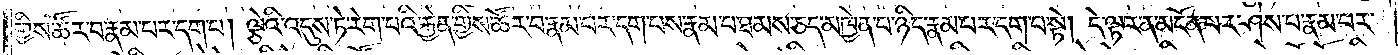གྱིས་ཚོར་བ་རྣམ་པར་དག་པ། ལྕེའི་འདུས་ཏེ་རེག་པའི་རྐྱེན་གྱིས་ཚོར་བ་རྣམ་པར་དག་པས་རྣམ་པ་ཐམས་ཅད་མཁྱེན་པ་ཉིད་རྣམ་པར་དག་པ་སྟེ། དེ་ལྟར་ན་མངོན་པར་ཤེས་པ་རྣམ་པར་
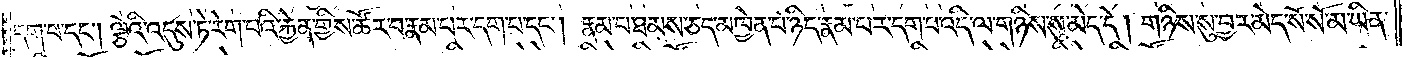དག་པ་དང༌། ལྕེའི་འདུས་ཏེ་རེག་པའི་རྐྱེན་གྱིས་ཚོར་བ་རྣམ་པར་དག་པ་དང༌། རྣམ་པ་ཐམས་ཅད་མཁྱེན་པ་ཉིད་རྣམ་པར་དག་པ་འདི་ལ་གཉིས་སུ་མེད་དེ། གཉིས་སུ་བྱར་མེད་སོ་སོ་མ་ཡིན་
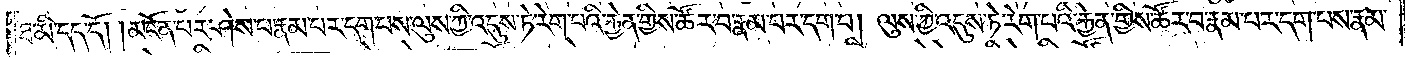ཐ་མི་དད་དོ། །མངོན་པར་ཤེས་པ་རྣམ་པར་དག་པས་ལུས་ཀྱི་འདུས་ཏེ་རེག་པའི་རྐྱེན་གྱིས་ཚོར་བ་རྣམ་པར་དག་པ། ལུས་ཀྱི་འདུས་ཏེ་རེག་པའི་རྐྱེན་གྱིས་ཚོར་བ་རྣམ་པར་དག་པས་རྣམ་
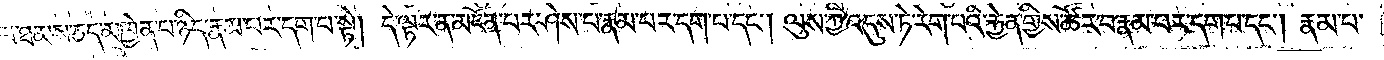པ་ཐམས་ཅད་མཁྱེན་པ་ཉིད་རྣམ་པར་དག་པ་སྟེ། དེ་ལྟར་ན་མངོན་པར་ཤེས་པ་རྣམ་པར་དག་པ་དང༌། ལུས་ཀྱི་འདུས་ཏེ་རེག་པའི་རྐྱེན་གྱིས་ཚོར་བ་རྣམ་པར་དག་པ་དང༌། རྣམ་པ་
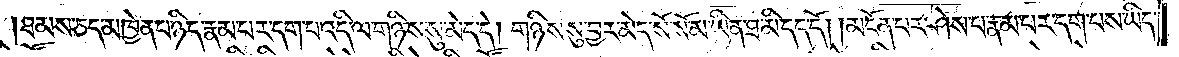ཐམས་ཅད་མཁྱེན་པ་ཉིད་རྣམ་པར་དག་པ་འདི་ལ་གཉིས་སུ་མེད་དེ། གཉིས་སུ་བྱར་མེད་སོ་སོ་མ་ཡིན་ཐ་མི་དད་དོ། །མངོན་པར་ཤེས་པ་རྣམ་པར་དག་པས་ཡིད་
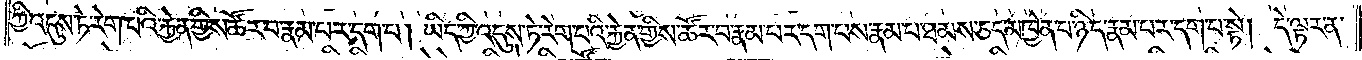ཀྱི་འདུས་ཏེ་རེག་པའི་རྐྱེན་གྱིས་ཚོར་བ་རྣམ་པར་དག་པ། ཡིད་ཀྱི་འདུས་ཏེ་རེག་པའི་རྐྱེན་གྱིས་ཚོར་བ་རྣམ་པར་དག་པས་རྣམ་པ་ཐམས་ཅད་མཁྱེན་པ་ཉིད་རྣམ་པར་དག་པ་སྟེ། དེ་ལྟར་ན་
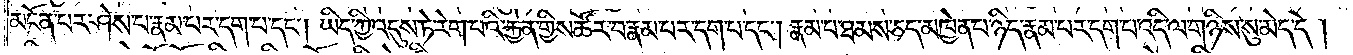མངོན་པར་ཤེས་པ་རྣམ་པར་དག་པ་དང༌། ཡིད་ཀྱི་འདུས་ཏེ་རེག་པའི་རྐྱེན་གྱིས་ཚོར་བ་རྣམ་པར་དག་པ་དང༌། རྣམ་པ་ཐམས་ཅད་མཁྱེན་པ་ཉིད་རྣམ་པར་དག་པ་འདི་ལ་གཉིས་སུ་མེད་དེ།
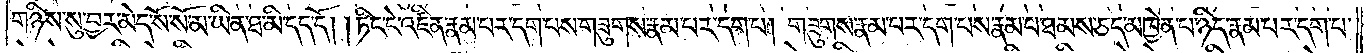གཉིས་སུ་བྱར་མེད་སོ་སོ་མ་ཡིན་ཐ་མི་དད་དོ། །ཏིང་ངེ་འཛིན་རྣམ་པར་དག་པས་གཟུགས་རྣམ་པར་དག་པ། གཟུགས་རྣམ་པར་དག་པས་རྣམ་པ་ཐམས་ཅད་མཁྱེན་པ་ཉིད་རྣམ་པར་དག་པ་
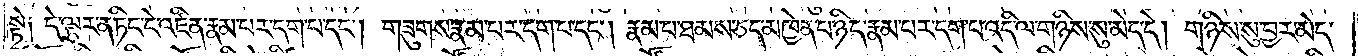སྟེ༑ དེ་ལྟར་ན་ཏིང་ངེ་འཛིན་རྣམ་པར་དག་པ་དང༌། གཟུགས་རྣམ་པར་དག་པ་དང༌། རྣམ་པ་ཐམས་ཅད་མཁྱེན་པ་ཉིད་རྣམ་པར་དག་པ་འདི་ལ་གཉིས་སུ་མེད་དེ། གཉིས་སུ་བྱར་མེད་
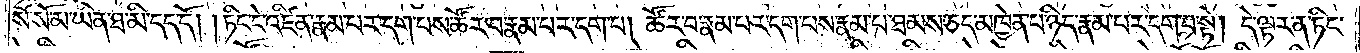སོ་སོ་མ་ཡིན་ཐ་མི་དད་དོ། །ཏིང་ངེ་འཛིན་རྣམ་པར་དག་པས་ཚོར་བ་རྣམ་པར་དག་པ། ཚོར་བ་རྣམ་པར་དག་པས་རྣམ་པ་ཐམས་ཅད་མཁྱེན་པ་ཉིད་རྣམ་པར་དག་པ་སྟེ། དེ་ལྟར་ན་ཏིང་
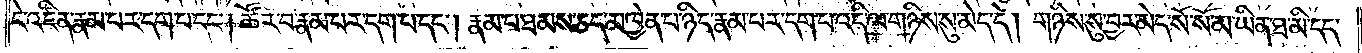ངེ་འཛིན་རྣམ་པར་དག་པ་དང༌། ཚོར་བ་རྣམ་པར་དག་པ་དང༌། རྣམ་པ་ཐམས་ཅད་མཁྱེན་པ་ཉིད་རྣམ་པར་དག་པ་འདི་ལ་གཉིས་སུ་མེད་དེ། གཉིས་སུ་བྱར་མེད་སོ་སོ་མ་ཡིན་ཐ་མི་དད་
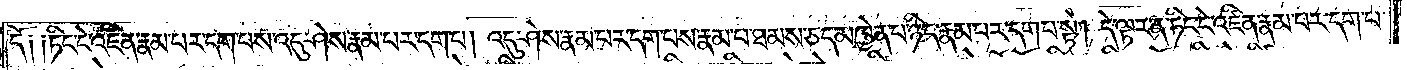དོ༑ ༑ཏིང་ངེ་འཛིན་རྣམ་པར་དག་པས་འདུ་ཤེས་རྣམ་པར་དག་པ། འདུ་ཤེས་རྣམ་པར་དག་པས་རྣམ་པ་ཐམས་ཅད་མཁྱེན་པ་ཉིད་རྣམ་པར་དག་པ་སྟེ། དེ་ལྟར་ན་ཏིང་ངེ་འཛིན་རྣམ་པར་དག་པ་
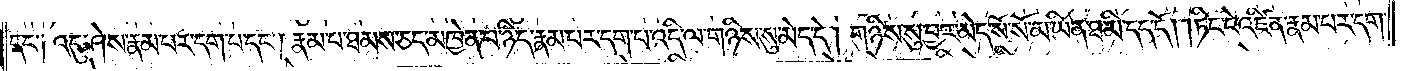དང་༑ འདུ་ཤེས་རྣམ་པར་དག་པ་དང༌། རྣམ་པ་ཐམས་ཅད་མཁྱེན་པ་ཉིད་རྣམ་པར་དག་པ་འདི་ལ་གཉིས་སུ་མེད་དེ། གཉིས་སུ་བྱར་མེད་སོ་སོ་མ་ཡིན་ཐ་མི་དད་དོ། །ཏིང་ངེ་འཛིན་རྣམ་པར་དག་
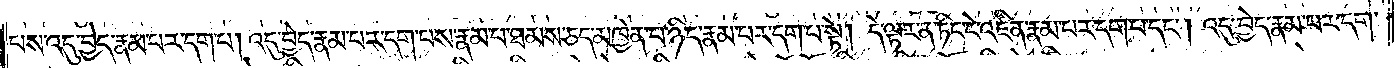པས་འདུ་བྱེད་རྣམ་པར་དག་པ། འདུ་བྱེད་རྣམ་པར་དག་པས་རྣམ་པ་ཐམས་ཅད་མཁྱེན་པ་ཉིད་རྣམ་པར་དག་པ་སྟེ། དེ་ལྟར་ན་ཏིང་ངེ་འཛིན་རྣམ་པར་དག་པ་དང༌། འདུ་བྱེད་རྣམ་པར་དག་
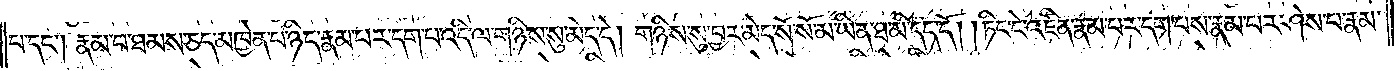པ་དང༌། རྣམ་པ་ཐམས་ཅད་མཁྱེན་པ་ཉིད་རྣམ་པར་དག་པ་འདི་ལ་གཉིས་སུ་མེད་དེ། གཉིས་སུ་བྱར་མེད་སོ་སོ་མ་ཡིན་ཐ་མི་དད་དོ། །ཏིང་ངེ་འཛིན་རྣམ་པར་དག་པས་རྣམ་པར་ཤེས་པ་རྣམ་
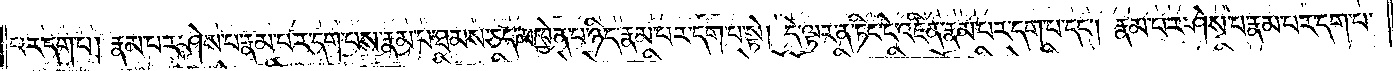པར་དག་པ། རྣམ་པར་ཤེས་པ་རྣམ་པར་དག་པས་རྣམ་པ་ཐམས་ཅད་མཁྱེན་པ་ཉིད་རྣམ་པར་དག་པ་སྟེ། དེ་ལྟར་ན་ཏིང་ངེ་འཛིན་རྣམ་པར་དག་པ་དང༌། རྣམ་པར་ཤེས་པ་རྣམ་པར་དག་པ་
